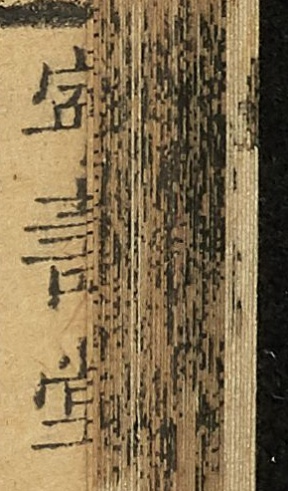寧壽堂
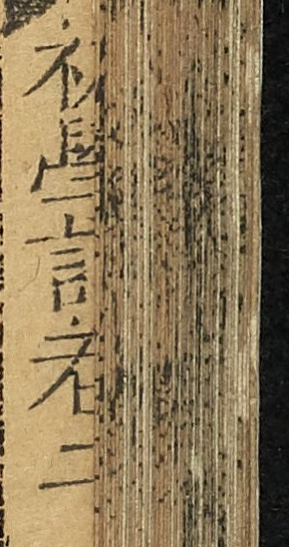初學記卷二
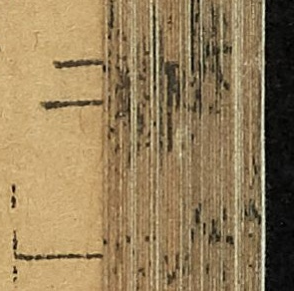十一
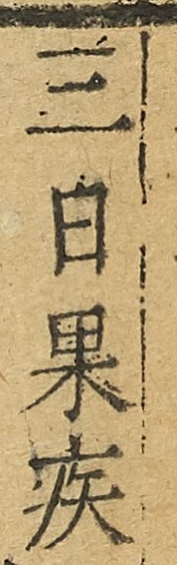三日果疾
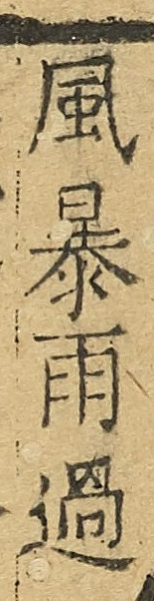風暴雨過
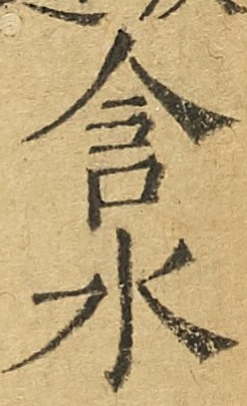含水
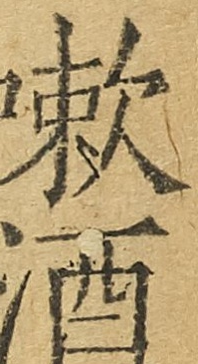嗽酒
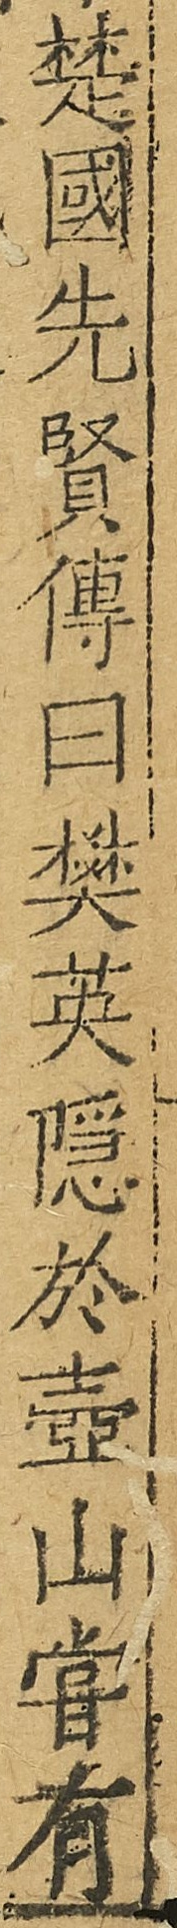楚國先賢傳曰樊英隱於壺山嘗有
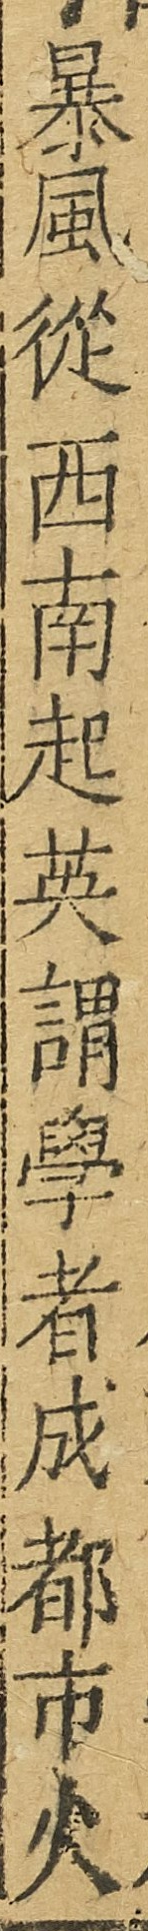暴風從西南起英謂學者成都市火
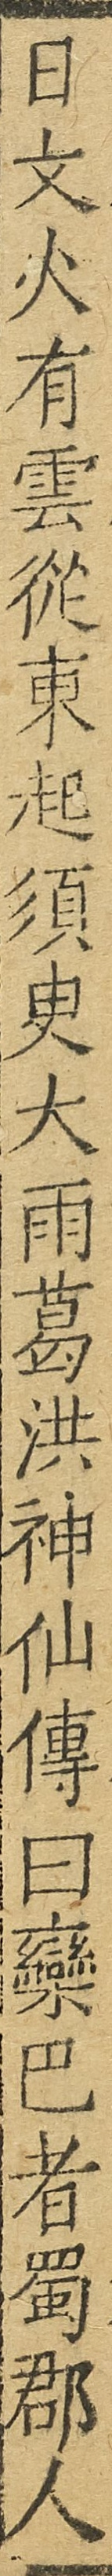日大火有雲從東起須臾大雨葛洪神仙傳曰欒巴者蜀郡人
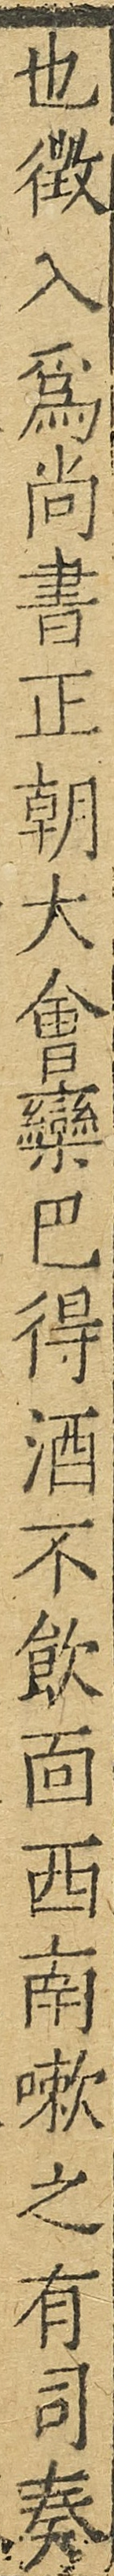也徵入爲尚書正朝大會欒巴得酒不飲面西南嗽之有司奏
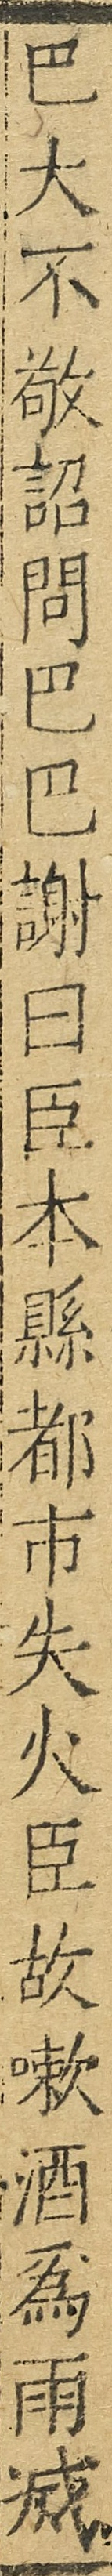巴大不敬詔問巴巴謝曰臣本縣都市失火臣故嗽酒爲雨滅
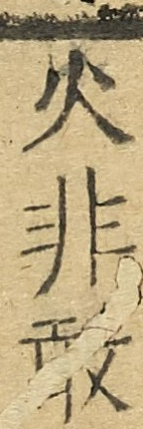火非敢
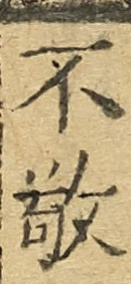不敬
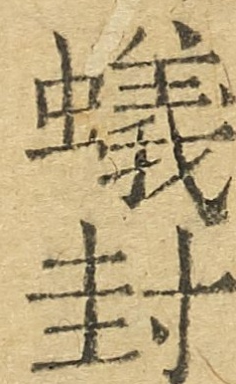蟻封
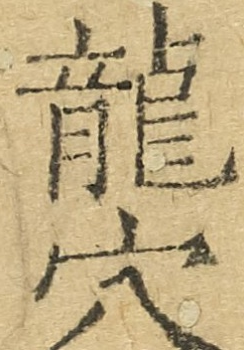龍穴
